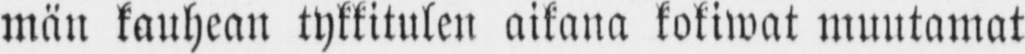män kauhean tykkitulen aikana kokiwat muutamat
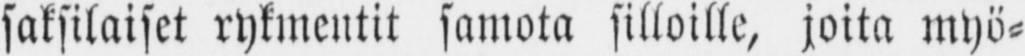saksilaiset rykmentit samota silloille, joita myö-
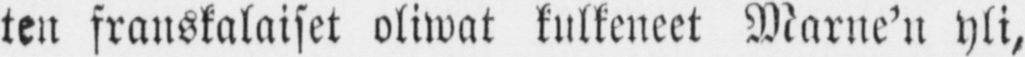ten franskalaiset oliwat kulkeneet Marne’n yli,
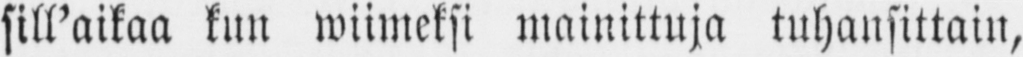sill’aikaa kun wiimeksi mainittuja tuhansittain,
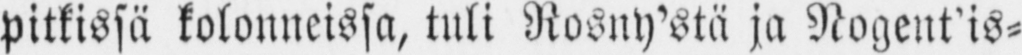pitkissä kolonneissa, tuli Rosny’stä ja Nogent’is-
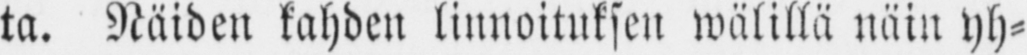ta. Näiden kahden linnoituksen wälillä näin yh-
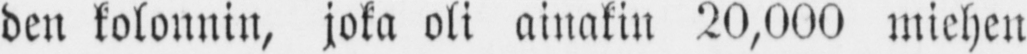den kolonnin, joka oli ainakin 20,000 miehen
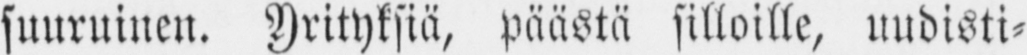suuruinen. Yrityksiä, päästä silloille, uudisti-
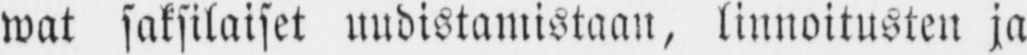wat saksilaiset uudistamistaan, linnoitusten ja
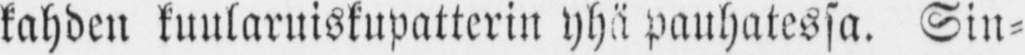kahden kuularuiskupatterin yhä pauhatessa. Sin-
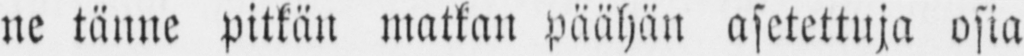ne tänne pitkän matkan päähän asetettuja osia
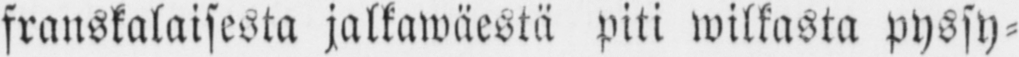franskalaisesta jalkawäestä piti wilkasta pyssy-
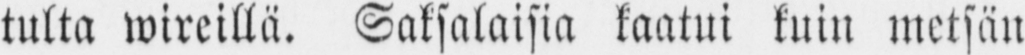tulta wireillä. Saksalaisia kaatui kuin metsän
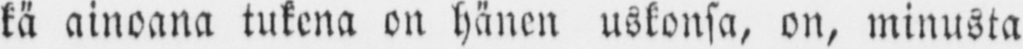kä ainoana tukena on hänen uskonsa, on, minusta
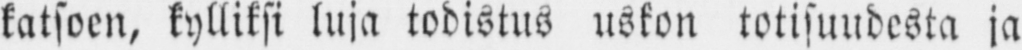katsoen, kylliksi luja todistus uskon totisuudesta ja
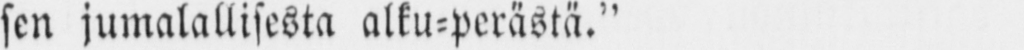sen jumalallisesta alku-perästä.”
